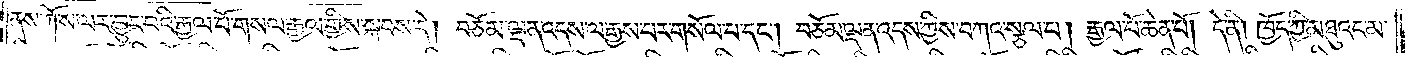ནས་ཀོ་ས་ལར་བྱུང་བའི་རྒྱལ་པོ་གསལ་རྒྱལ་གྱིས་སྐབས་དེ། བཅོམ་ལྡན་འདས་ལ་རྒྱས་བར་གསོལ་པ་དང༌། བཅོམ་ལྡན་འདས་ཀྱི་བཀའ་སྩལ་པ། རྒྱལ་པོ་ཆེན་པོ། དེ་ནི། ཁྱོད་ཀྱི་མཐུའང་མ་
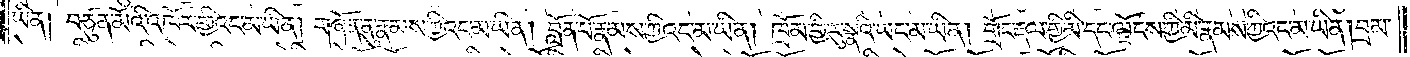ཡིན། བཙུན་མོའི་འཁོར་གྱིའང་མ་ཡིན། གཞོན་ནུ་རྣམས་ཀྱིའང་མ་ཡིན། བློན་པོ་རྣམས་ཀྱིའང་མ་ཡིན། །ཁྲོམ་གྱི་རུ་སྣའི་ཡང་མ་ཡིན། གྲོང་རྡལ་གྱི་མི་དང་ལྗོངས་ཀྱི་མི་རྣམས་ཀྱིའང་མ་ཡིན། བྲམ་
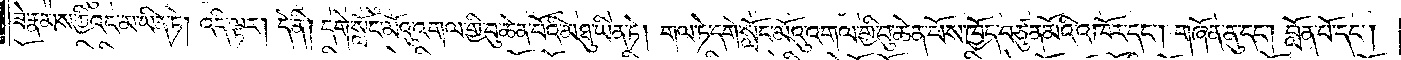ཟེ་རྣམས་ཀྱིའང་མ་ཡིན་ཏེ། འདི་ལྟར། དེ་ནི། དགེ་སློང་མོའུ་འགལ་གྱི་བུ་ཆེན་པོའི་མཐུ་ཡིན་ཏེ། གལ་ཏེ་དགེ་སློང་མོའུ་འགལ་གྱི་བུ་ཆེན་པོས་ཁྱོད་བཙུན་མོའི་འཁོར་དང༌། གཞོན་ནུ་དང༌། བློན་པོ་དང༌།
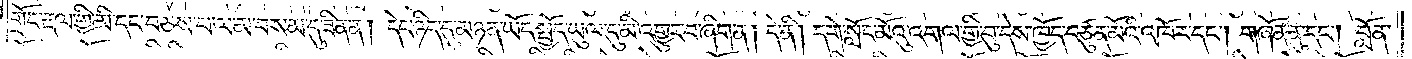གྲོང་རྡལ་གྱི་མི་དང་བཅས་པ་ལ་མ་བསམ་དུ་ཟིན་ན། དེང་ཉིད་དུ་མཉན་ཡོད་སྤྱོད་ཡུལ་དུ་མི་འགྱུར་བ་ཞིག་ན། དེ་ནི། དགེ་སློང་མོའུ་འགལ་གྱི་བུ་དེས་ཁྱོད་བཙུན་མོའི་འཁོར་དང༌། གཞོན་ནུ་དང༌། བློན་
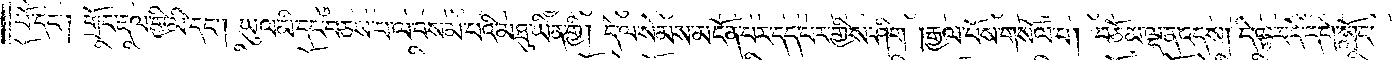པོ་དང༌། གྲོང་རྡལ་གྱི་མི་དང༌། ཡུལ་མི་དང་བཅས་པ་ལ་བསམ་པའི་མཐུ་ཡིན་གྱི། དེ་ལ་སེམས་མངོན་པར་དད་པར་གྱིས་ཤིག །རྒྱལ་པོས་གསོལ་བ། བཅོམ་ལྡན་འདས། དེ་ལྟར་དེ་དགེ་སློང་
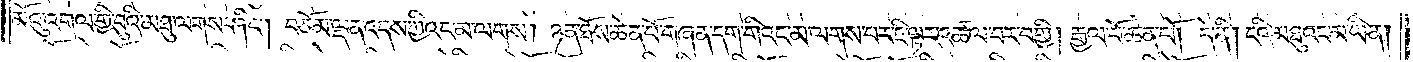མོའུ་འགལ་གྱི་བུའི་མཐུ་ལགས་ཤིང༌། བཅོམ་ལྡན་འདས་ཀྱིའང་མ་ལགས། ཉན་ཐོས་ཆེན་པོ་གཞན་དག་གིའང་མ་ལགས་པར་ཇི་ལྟར་འཚལ་བར་བགྱི། རྒྱལ་པོ་ཆེན་པོ། དེ་ནི། ངའི་མཐུའང་མ་ཡིན།
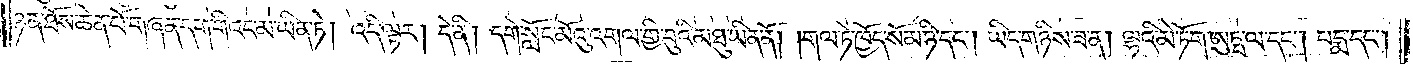ཉན་ཐོས་ཆེན་པོ་གཞན་དག་གིའང་མ་ཡིན་ཏེ། འདི་ལྟར། དེ་ནི། དགེ་སློང་མོའུ་འགལ་གྱི་བུའི་མཐུ་ཡིན་ནོ། །གལ་ཏེ་ཁྱོད་སོམ་ཉི་དང༌། ཡིད་གཉིས་ཟ་ན། ལྷའི་མེ་ཏོག་ཨུཏྤ་ལ་དང༌། པདྨ་དང༌།
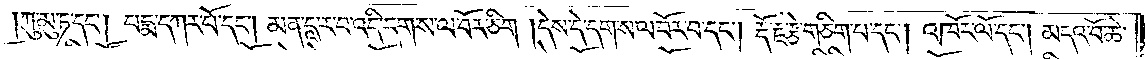ཀུ་མུ་ཏ་དང༌། པདྨ་དཀར་པོ་དང༌། མན་དཱ་ར་བ་འདི་དག་ས་ལ་བོར་ཅིག །དེས་དེ་དག་ས་ལ་བོར་བ་དང༌། རྡོ་རྗེ་རྩེ་གཅིག་པ་དང༌། འཁོར་ལོ་དང༌། མདའ་བོ་ཆེ་
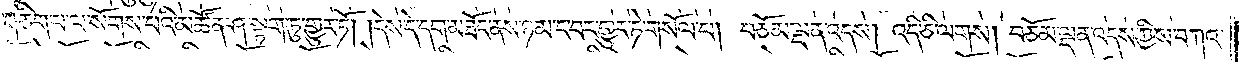གཅིག་པ་ལ་སོགས་པའི་མཚོན་ཤ་སྟག་ཏུ་འགྱུར་ཏོ། །དེས་དེ་དག་མཐོང་ནས་ཉམ་ང་བར་གྱུར་ཏེ་གསོལ་པ། བཅོམ་ལྡན་འདས། འདི་ཅི་ལགས། བཅོམ་ལྡན་འདས་ཀྱིས་བཀའ་
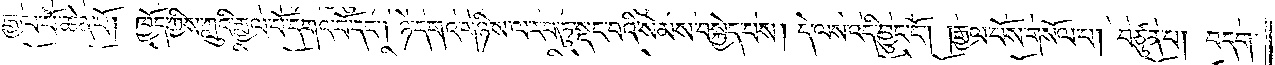སྩལ་པ། རྒྱལ་པོ་ཆེན་པོ། ཁྱོད་ཀྱིས་ཀླུའི་རྒྱལ་པོ་དགའ་བོ་དང༌། ཉེ་དགའ་གཉིས་ལ་རབ་ཏུ་སྡང་བའི་སེམས་བསྐྱེད་པས། དེ་ལས་འདི་བྱུང་ངོ༌། །རྒྱལ་པོས་གསོལ་པ། བཙུན་པ། བདག་
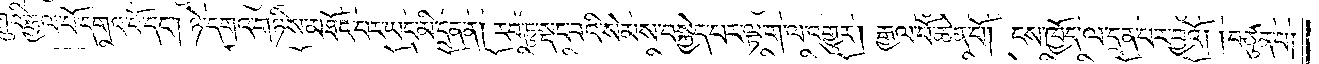གིས་ཀླུའི་རྒྱལ་པོ་དགའ་བོ་དང༌། ཉེ་དགའ་གཉིས་མཐོང་བར་ཡང་མི་དྲན་ན། རབ་ཏུ་སྡང་བའི་སེམས་བསྐྱེད་པར་ལྟ་ག་ལ་འགྱུར། རྒྱལ་པོ་ཆེན་པོ། ངས་ཁྱོད་ལ་དྲན་པར་བྱའོ། །བཙུན་པ།
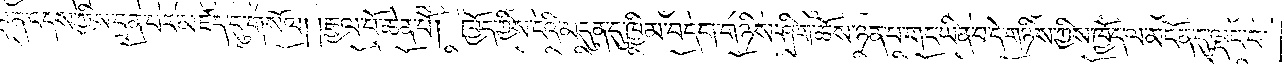བཅོམ་ལྡན་འདས་ཀྱིས་དྲན་པར་མཛད་དུ་གསོལ། །རྒྱལ་པོ་ཆེན་པོ། ཁྱོད་ཀྱིས་ངའི་མདུན་དུ་ཁྱིམ་བདག་གཉིས་ཤིག་ཆོས་ཉན་པ་གང་ཡིན་པ་དེ་གཉིས་ཀྱིས་ཁྱོད་ལ་མངོན་དུ་ལྡང་བ་
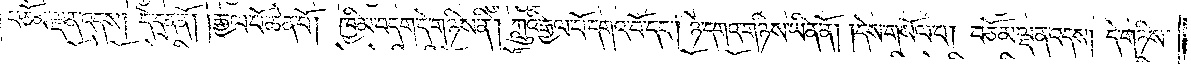བཅོམ་ལྡན་འདས། དེ་དྲན་ནོ། །རྒྱལ་པོ་ཆེན་པོ། ཁྱིམ་བདག་དེ་གཉིས་ནི། ཀླུའི་རྒྱལ་པོ་དགའ་བོ་དང༌། ཉེ་དགའ་གཉིས་ཡིན་ནོ། །དེས་གསོལ་བ། བཅོམ་ལྡན་འདས། དེ་གཉིས་
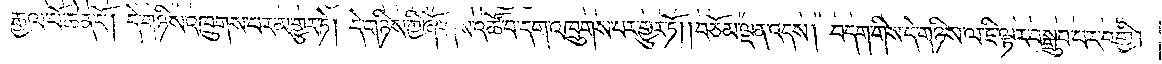རྒྱལ་པོ་ཆེན་པོ། དེ་གཉིས་འཁྲུགས་པར་མ་གྱུར་ཏེ། དེ་གཉིས་ཀྱི་ཞོ་ཤས་འཚོ་བ་དག་འཁྲུགས་པར་གྱུར་ཏོ། །བཅོམ་ལྡན་འདས། བདག་གིས་དེ་གཉིས་ལ་ཇི་ལྟར་བསྒྲུབ་པར་བགྱི།
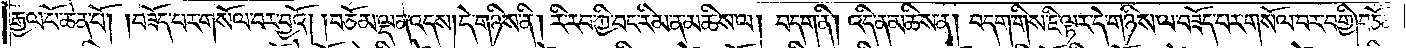རྒྱལ་པོ་ཆེན་པོ། །བཟོད་པར་གསོལ་བར་བྱའོ། །བཅོམ་ལྡན་འདས།དེ་གཉིས་ནི། རི་རབ་ཀྱི་བང་རིམ་ན་མཆིས་ལ། བདག་ནི། འདི་ན་མཆིས་ན། བདག་གིས་ཇི་ལྟར་དེ་གཉིས་ལ་བཟོད་པར་གསོལ་བར་བགྱི།བཅོམ་
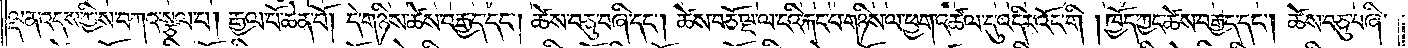ལྡན་འདས་ཀྱིས་བཀའ་སྩལ་པ། རྒྱལ་པོ་ཆེན་པོ། དེ་གཉིས་ཚེས་བརྒྱད་དང༌། ཚེས་བཅུ་བཞི་དང༌། ཚེས་བཅོ་ལྔ་ལ་ངའི་རྐང་པ་གཉིས་ལ་ཕྱག་འཚལ་དུ་འདིར་འོང་གི །ཁྱོད་ཀྱང་ཚེས་བརྒྱད་དང༌། ཚེས་བཅུ་བཞི་
